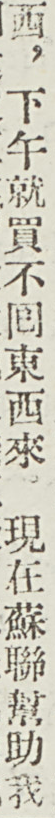西，下午就買不囘東西來。現在蘇聯幫助我
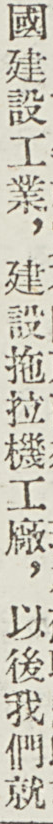國建設工業，建設拖拉機工廠，以後我們就
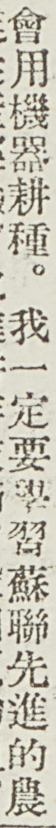會用機器耕種。我一定要學習蘇聯先進的農
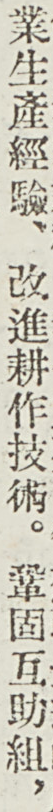業生產經驗、改進耕作技術。鞏固互助組，
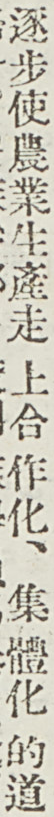逐步使農業生產走 上合作化、集體化 的道
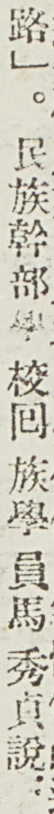路」。民族幹部學校囘族學員馬秀貞說：
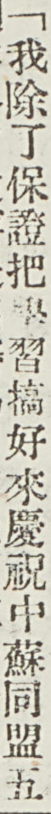「我除了保證把學習搞好來慶祝中蘇同盟五
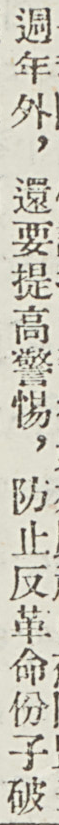週年外，還要提高警惕，防止反革命分子破
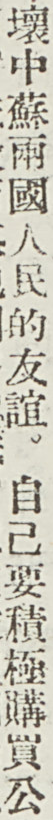壞中蘇兩國人民的友誼。自己要積極購買公
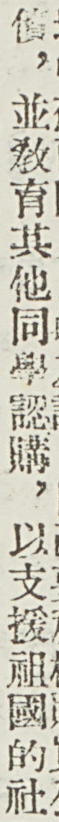債，並敎育其他同學認購，以支援祖國的社
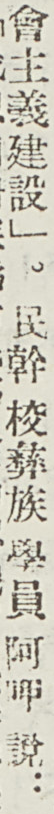會主義建設」。民幹 校彝族 學員 阿呷 說：
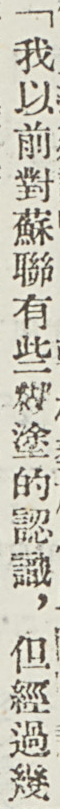「我以前對蘇聯有些糊塗的認識，但經過幾
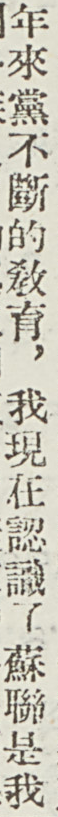年來黨不斷的敎育，我現在認識了蘇聯是我
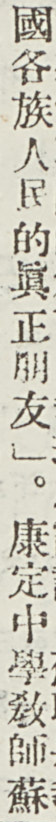國各族人民的眞正朋友」。康定中學敎師蘇
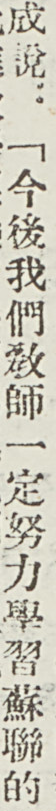成說：「今後我們敎師一定努力學習蘇聯的
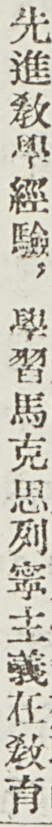先進敎學經驗，學習馬克思列寧主義在敎育
